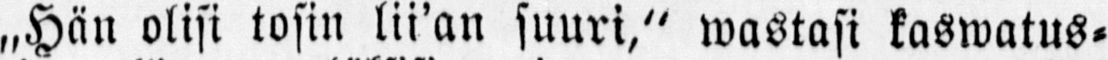„Hän olisi tosin lii’an suuri," wastasi kaswatus-
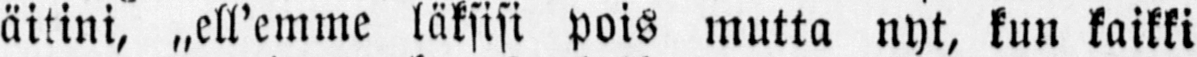äitini, „ell’emme läksisi pois mutta nyt, kun kaikki
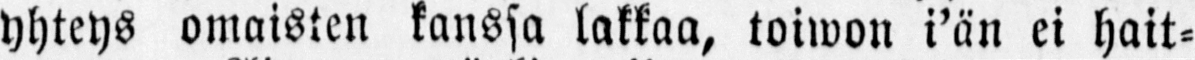yhteys omaisten kanssa lakkaa, toiwon i’än ei hait-
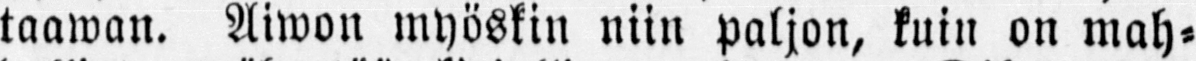taawan. Aiwon myöskin niin paljon, kuin on mah-
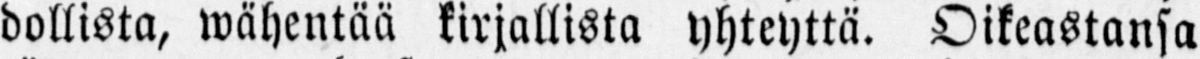dollista, wähentää kirjallista yhteyttä. Oikeastansa
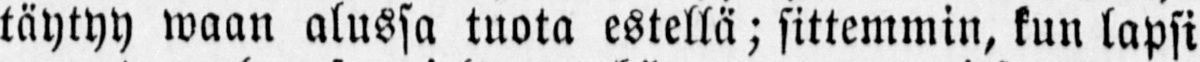täytyy waan alussa tuota estellä; sittemmin, kun lapsi
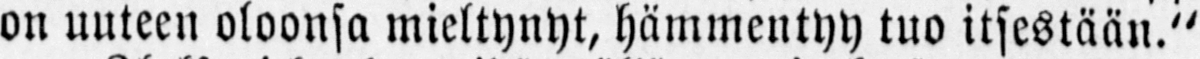on uuteen oloonsa mieltynyt, hämmentyy tuo itsestään."
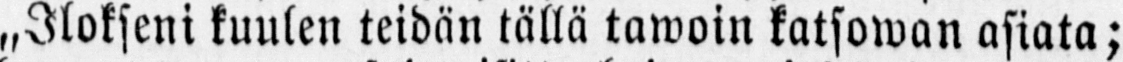„Ilokseni kuulen teidän tällä tawoin katsowan asiata;
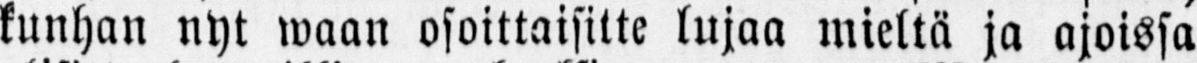kunhan nyt waan osoittaisitte lujaa mieltä ja ajoissa
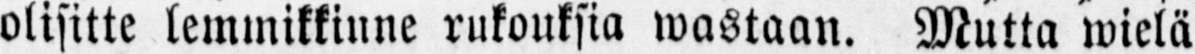olisitte lemmikkinne rukouksia wastaan. Mutta wielä
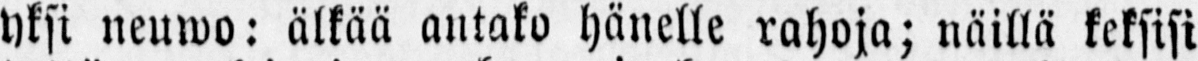yksi neuwo: äikää antako hänelle rahoja; näillä keksisi
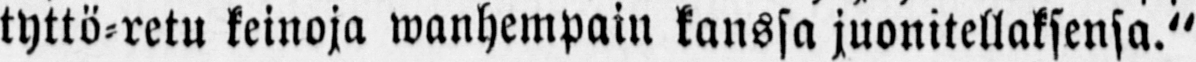tyttö-retu keinoja wanhempain kanssa juonitellaksensa."
